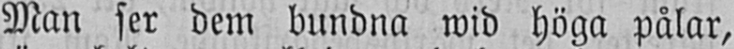Man ser dem bundna wid höga pålar,
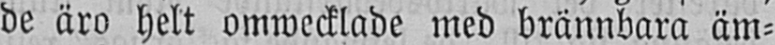de äro helt omwecklade med brännbara äm-
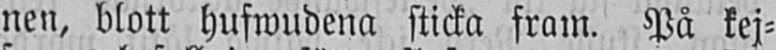nen, blott hufwudena sticka fram. På kej-
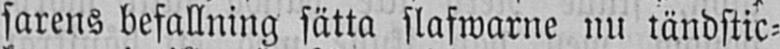sarens befallning sätta slafwarne nu tändstic-
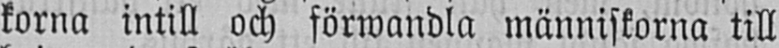korna intill och förwandla människorna till
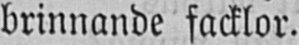brinnande facklor.
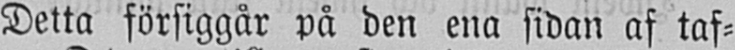Detta försiggår på den ena sidan af taf-
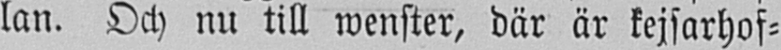lan. Och nu till wenster, där är kejsarhof-
